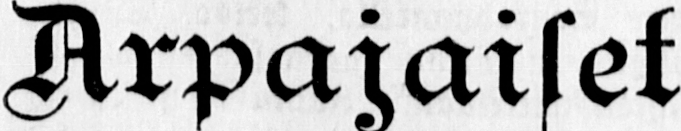Arpajaiset
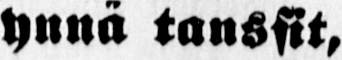ynnä tanssit,
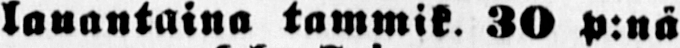lauantaina tammik 30 p:nä
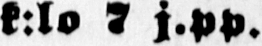k:lo 7 j.pp.
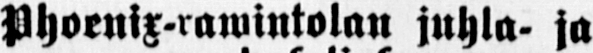Phoenix-rawintolan juhla- ja
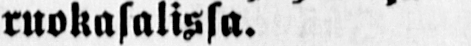ruokasalissa Köörilaulula j torwisoittoa arpo-
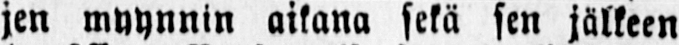jen myynnin aikana sekä sen jälkeen
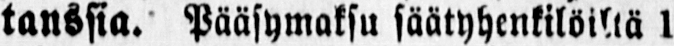tanssia. Pääsymaksu säätyhenkilöillä 1
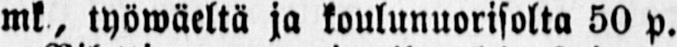mk, työwäeltä ja koulunuorisolta 50 p.
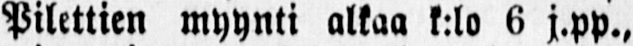Pilettien myynti alkaa k:lo 6 j.pp.,
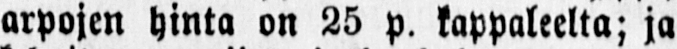arpojen hinta on 25 p. kappaleelta; ja
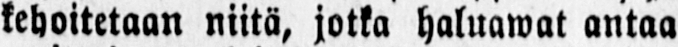kehoitetaan niitä, jotka haluawat antaa
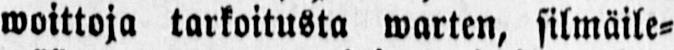moittoja tarkoitusta marten, silmäile-
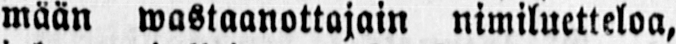mään wastaanottajain nimiluetteloa,
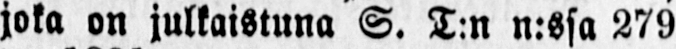joka on julkaistuna S. T:n n:ssa 279
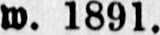w. 1891.
